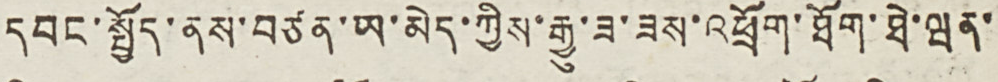དབང་སྤྱོད་ནས་བཙན་ཡ་མེད་ཀྱིས་རྒྱུ་ཟ་ཟས་འཕྲོག་ཐོག་ཐེ་ཝན་
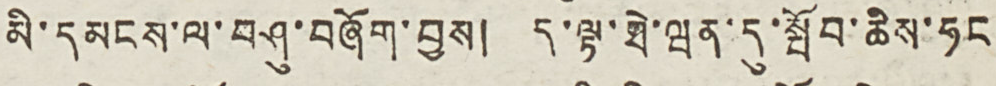མི་དམངས་ལ་བཤུ་བཞོག་བྱས། ད་ལྟ་ཐེ་ཝན་དུ་སྤོབ་ཆིས་ཧང
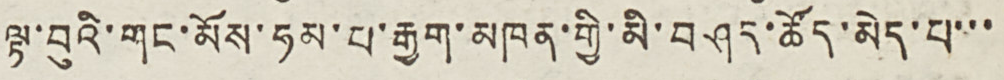ལྟ་བུའི་གང་མོས་ཧམ་པ་རྒྱག་མཁན་གྱི་མི་བཤད་ཚོད་མེད་པ་་་
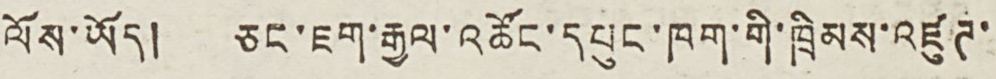ལོས་ཡོད། ཅང་ཇག་རྒྱལ་འཚོང་དཔུང་ཁག་གི་ཁྲིམས་འཛུཊ་
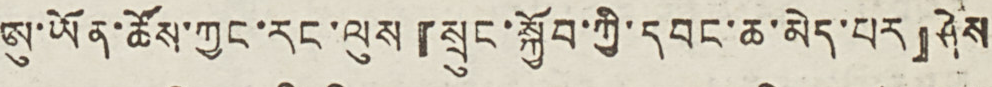ཨུ་ཡོན་ཚོས་ཀྱང་རང་ལུས『སྲུང་སྐྱོབ་ཀྱི་དབང་ཆ་མེད་པར』ཤེས
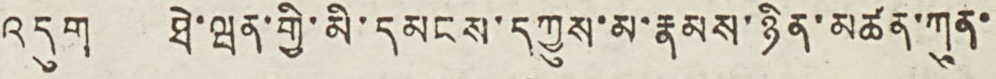འདུག ཐེ་ཝན་གྱི་མི་དམངས་དཀྱུས་མ་རྣམས་ཉིན་མཚན་ཀུན་
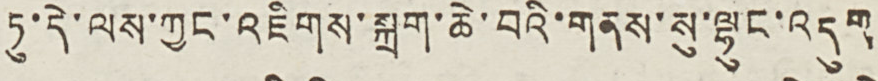ཏུ་དེ་ལས་ཀྱང་འཇིགས་སྐྲག་ཆེ་བའི་གནས་སུ་ལྷུང་འདུག
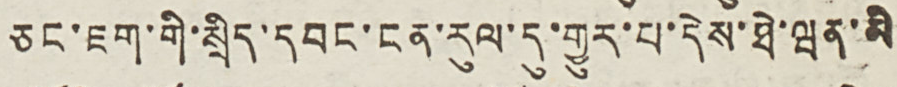ཅང་ཇག་གི་སྲིད་དབང་ངན་རུལ་དུ་གྱུར་པ་དེས་ཐེ་ཝན་མི
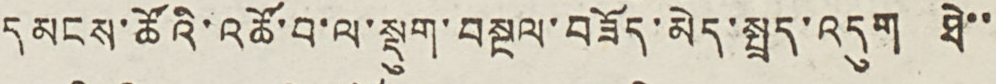དམངས་ཚོའི་འཚོ་བ་ལ་སྡུག་བསྔལ་བཟོད་མེད་སྤྲད་འདུག ཐེ་་
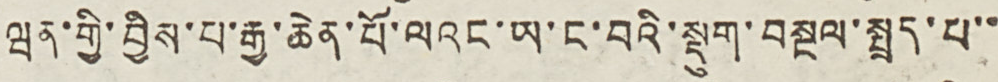ཝན་གྱི་བྱིས་པ་རྒྱ་ཆེན་པོ་ལའང་ཡ་ང་བའི་སྡུག་བསྔལ་སྤྲད་པ་་
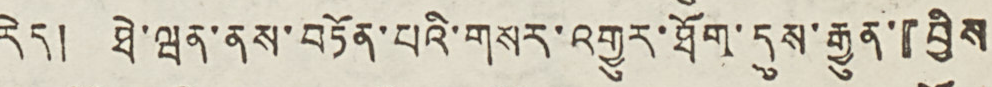རེད། ཐེ་ཝན་ནས་བཏོན་པའི་གསར་འགྱུར་ཐོག་དུས་རྒྱུན་『བྱིས
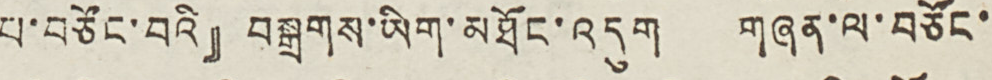པ་བཙོང་བའི』བསྒྲགས་ཡིག་མཐོང་འདུག གཞན་ལ་བཙོང་
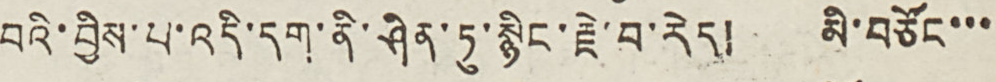བའི་བྱིས་པ་འདི་དག་ནི་ཤིན་ཏུ་སྙིང་རྗེ་བ་རེད། མི་བཙོང་་་
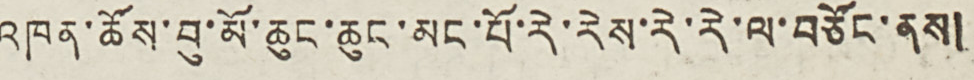འཁན་ཚོས་བུ་མོ་ཆུང་ཆུང་མང་པོ་རེ་རེས་རེ་རེ་ལ་བཙོང་ནས།
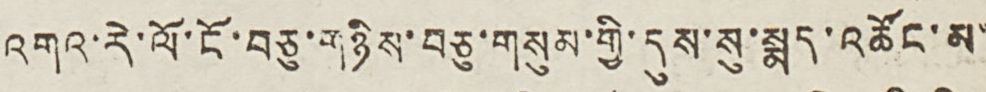འགའ་རེ་ལོ་ངོ་བཅུ་གཉིས་བཅུ་གསུམ་གྱི་དུས་སུ་སྨད་འཚོང་མ་
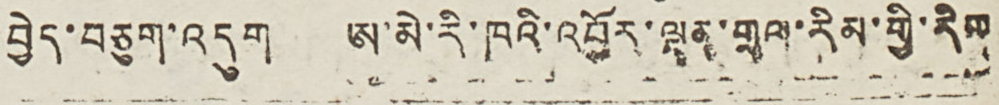བྱེད་བཅུག་འདུག ཨ་མེ་རི་ཁའི་འབྱོར་ལྡན་གྲལ་རིམ་གྱི་རིག
